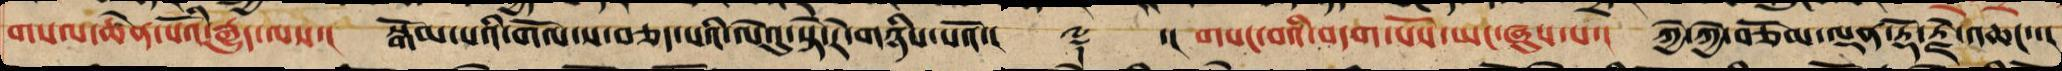གསལ་ཆེན་པོའི་རྒྱུད་ལས་། སྒོམ་པའི་གོལ་ས་བཅད་པའི་ལེའུ་སྟེ་རེ་གཉིས་པའོ་།། ༈ ་། གསང་བའི་བདག་པོས་ཡང་ཞུས་པ་། ཀྱེ་ཀྱེ་བཅོམ་ལྡན་རྡོ་རྗེ་འཆང་་།
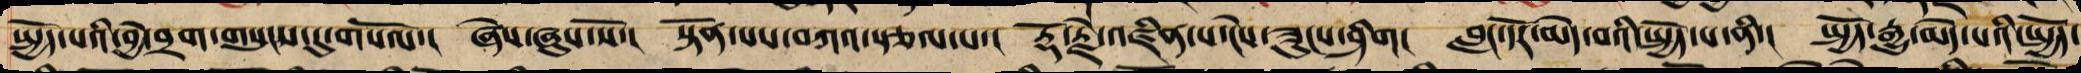སྤྱོད་པའི་བྱེ་བྲག་གསུང་དུ་གསོལ་། ཞེས་ཞུས་སོ་། སྟོན་པས་བཀའ་སྩལ་པ་། རྡོ་རྗེ་འཛིན་པ་ངེས་ཟུངས་ཤིག། བླང་དོར་མེད་བའི་སྤྱོད་པ་ནི་། སྤྱོད་རྒྱུ་མེད་པའི་སྤྱོད་
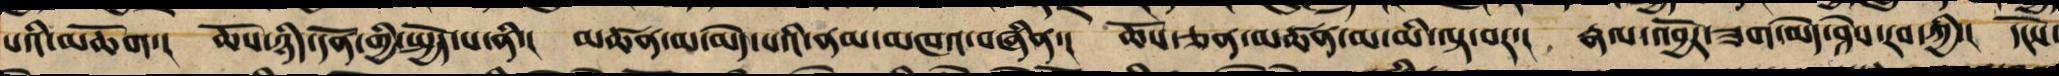པའི་མཆོག་། ཆོས་ཉིད་དོན་གྱིས་སྤྱོད་པ་ནི་། མཚན་མ་མེད་པས་ནམ་མཁའ་བཞིན་། ཆོས་ཅན་མཚན་མ་མི་ལྟ་བར་། རྣལ་འབྱོར་ཟག་མེད་ཤེས་རབ་ཀྱི་། དངོས་
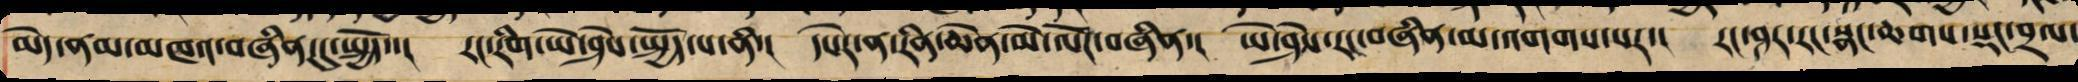མེད་ནམ་མཁའ་བཞིན་དུ་སྤྱོད་་། རང་རིག་ཡེ་ཤེས་སྤྱོད་པ་ནི་། དཔེར་ན་རིན་ཆེན་མེ་ལོང་བཞིན་། ཡེ་ཤེས་རང་བཞིན་མ་འགགས་པར་། རང་ཤར་རང་སྣང་ཆགས་སྡང་བྲལ་
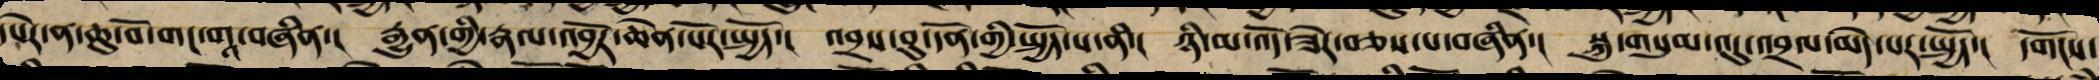དཔེར་ན་ཆུ་བོ་གང་གཱ་བཞིན་། རྒྱུན་གྱི་རྣལ་འབྱོར་ཆེན་པོར་སྤྱོད་། འབྲས་བུ་དོན་གྱི་སྤྱོད་པ་ནི་། ཉི་མ་འོད་ཟེར་བཅས་པ་བཞིན་། སྐུ་གསུམ་འདུ་འབྲལ་མེད་པར་སྤྱོད་། དགོངས་
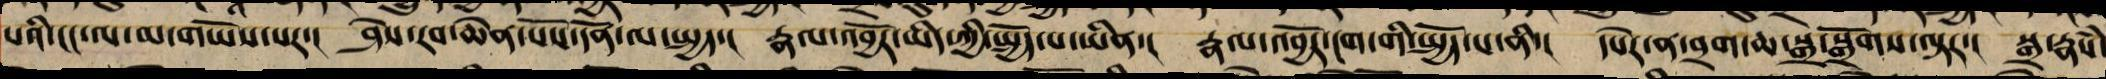པའི་ངང་ལ་མ་གཡོས་པར་། ཤེས་རབ་ཆེན་པོས་དོན་ལ་སྤྱད་། རྣལ་འབྱོར་ཡིད་ཀྱི་སྤྱོད་པ་ཡིན་། རྣལ་འབྱོར་ངག་གི་སྤྱོད་པ་ནི་། དཔེར་ན་བྲག་ཆ་སྒྲ་སྒྲོགས་ལྟར་། སྒྲ་རྣཾས་
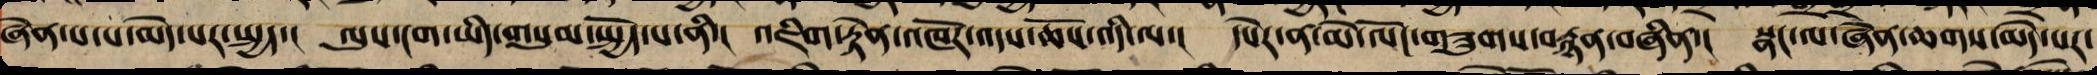ཞེན་པ་མེད་པར་སྤྱད་། ལུས་ངག་ཡིད་གསུམ་སྤྱོད་པ་ནི་། འཇིག་རྟེན་འཁོར་འདས་ཆོས་འདི་ལ་། དཔེར་ན་མེ་ལོང་གཟུགས་བརྙན་བཞིན་། སྣང་ལ་ཞེན་ཆགས་མེད་པར་
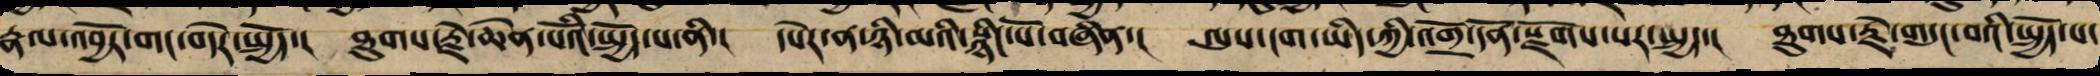རྣལ་འབྱོར་གང་བདེར་སྤྱོད་། ཐུགས་རྗེ་ཆེན་པོའི་སྤྱོད་པ་ནི་། དཔེར་ན་ཉི་མའི་སྙིང་པོ་བཞིན་། ལུས་ངག་ཡིད་ཀྱིས་འགྲོ་དོན་སྫོགས་པར་སྤྱད་། ཐུགས་རྗེ་གདུང་བའི་སྤྱོད་པ་
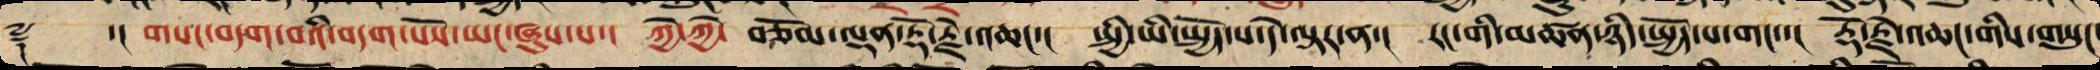༈ ་། གསང་བདག་བའི་བདག་པོས་ཡང་ཞུས་པ་། ཀྱེ་ཀྱེ་ བཅོམ་ལྡན་རྡོ་རྗེ་འཆང་། སྤྱི་ཡི་སྤྱོད་པ་དེ་ལྟར་ན་། རང་གི་མཚན་ཉིད་སྤྱོད་པ་གང་་། རྡོ་རྗེ་འཆང་གིས་གསུང་
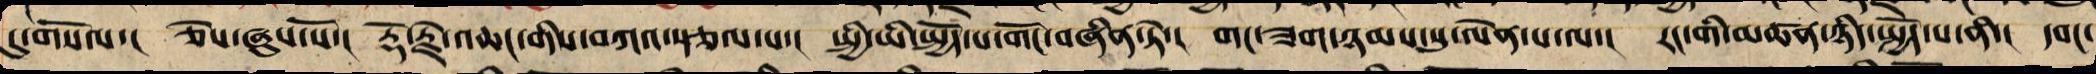དུ་གསོལ་། ཅེས་ཞུས་སོ་། རྡོ་རྗེ་འཆང་གིས་བཀའ་སྩལ་པ་། སྤྱི་ཡི་སྤྱོད་པ་གོང་བཞིན་ཏེ་། གང་ཟག་ཉམས་སུ་ལེན་པ་ལ་། རང་གི་མཚན་ཉིད་སྤྱོད་པ་ནི་། དབང་
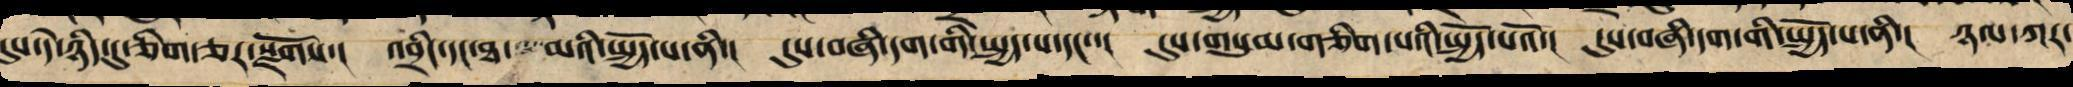དུས་དེ་ཉིད་དུ་ཅིག་ཅར་སྫོགས་། འབྲིང་དང་ཐ་ མའི་སྤྱོད་པ་ནི་། དུས་བཞི་དག་གི་སྤྱད་པ་དང་་། དུས་གསུམ་གཅིག་པའི་སྤྱོད་པའོ་། དུས་བཞི་དག་གི་སྤྱོད་པ་ནི་། ཉལ་ཀར་
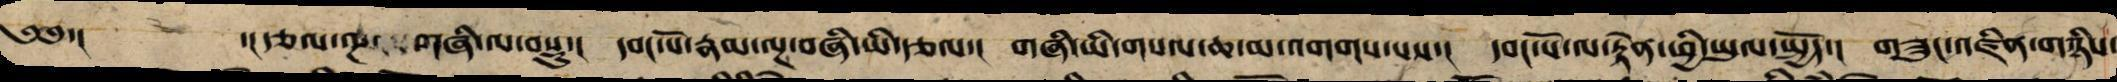༄༅་། ་།རྩལ་ལྔ་ གཞི་ལ་བསྡུ་། དབང་པོ་རྣམ་ལྔ་གཞི་ཡི་རྩལ་། གཞི་ཡི་གསལ་ཆ་མ་འགགས་པས་། དབང་པོ་ལ་བརྟེན་ཕྱི་ཡུལ་སྤྱོད་། གཟུང་འཛིན་གཉིས་
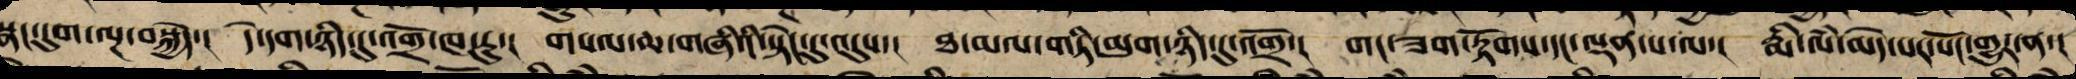སྣང་དུག་ལྔ་བསྐྱེད་། དེ་དག་ཉིད་དུ་འགྲོ་ཁ་རུ་། གསལ་ཆ་གཞིའི་སྟེང་དུ་འདུས་། ཐ་མལ་གཏི་མུག་ཉིད་དུ་འགྲོ་། གང་ཟག་རྟོགས་དང་ལྡན་པ་ལ་། རྨི་ལཾ་མེད་པར་སོང་གྱུར་ན་།
